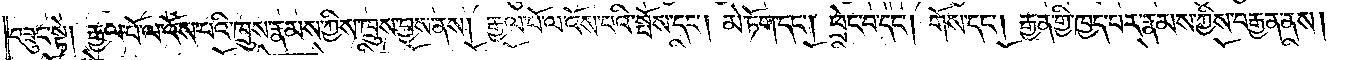བཟུང་སྟེ། རྒྱལ་པོ་ལ་འོས་པའི་ཁྲུས་རྣམས་ཀྱིས་ཁྲུས་བྱས་ནས། རྒྱལ་པོ་ལ་འོས་པའི་སྤོས་དང༌། མེ་ཏོག་དང༌། ཕྲེང་བ་དང༌། གོས་དང༌། རྒྱན་གྱི་ཁྱད་པར་རྣམས་ཀྱིས་བརྒྱན་ནས།
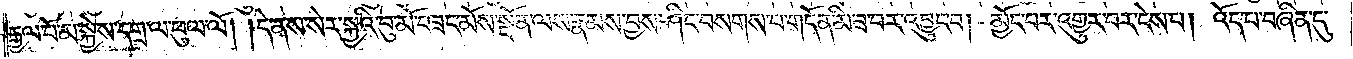རྒྱལ་པོ་མ་སྐྱེས་དགྲ་ལ་ཕུལ་ལོ། །དེ་ནས་སེར་སྐྱའི་བུ་མོ་བཟང་མོས་སྔོན་ལས་རྣམས་བྱས་ཤིང་བསགས་པ་གདོན་མི་ཟ་བར་འབྱུང་བ། མྱོང་བར་འགྱུར་བར་ངེས་པ། འོད་པ་བཞིན་དུ་
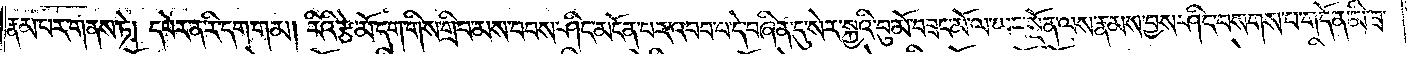རྣམ་པར་གནས་ཏེ། དཔེར་ན་རི་དག་གམ། རིའི་རྩེ་མོ་དག་གིས་གྲིབ་མས་བབས་ཤིང་མངོན་པར་འབབ་པ་དེ་བཞིན་དུ་སེར་སྐྱའི་བུ་མོ་བཟང་མོ་ལ་ཡང་སྔོན་ལས་རྣམས་བྱས་ཤིང་བསགས་པ་གདོན་མི་ཟ་
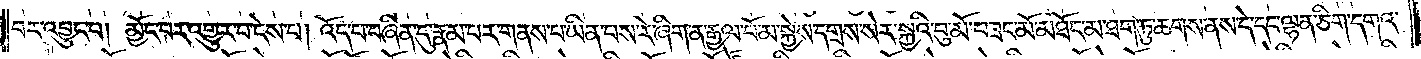བར་འབྱུང་བ། མྱོང་བར་འགྱུར་བ་ངེས་པ། འོད་པ་བཞིན་དུ་རྣམ་པར་གནས་པ་ཡིན་པས་རེ་ཞིག་ན་རྒྱལ་པོ་མ་སྐྱེད་དགྲས་སེར་སྐྱའི་བུ་མོ་བཟང་མོ་མཐོང་མ་ཐག་ཏུ་ཆགས་ནས་དེ་དང་ལྷན་ཅིག་དགའ་
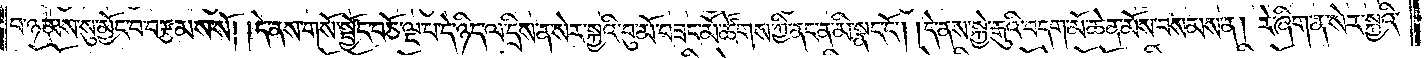བ་ཉམས་སུ་མྱོང་བ་བརྩམས་སོ། །དེ་ནས་གསོ་སྦྱོང་བཅོ་ལྔ་པ་དེ་ཉིད་ལ་དྲིས་ན་སེར་སྐྱའི་བུ་མོ་བཟང་མོ་ཚོགས་ཀྱི་ནང་ན་མི་སྣང་ངོ༌། །དེ་ནས་སྐྱེ་རྒུའི་བདག་མོ་ཆེན་མོས་བསམས་ན། རེ་ཞིག་ན་སེར་སྐྱའི་
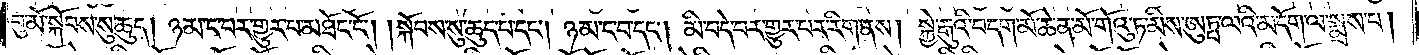བུ་མོ་སྐོབས་སུ་ཆུད། ཉམ་ང་བར་གྱུར་པ་མཐོང་ངོ༌། །སྐོབས་སུ་ཆུད་པ་དང༌། ཉམ་ང་བ་དང༌། མི་བདེ་བར་གྱུར་བར་རིག་ནས། སྐྱེ་རྒུའི་བདག་མོ་ཆེན་མོ་གོའུ་ཏ་མིས་ཨུཏྤ་ལའི་མདོག་ལ་སྨྲས་པ།
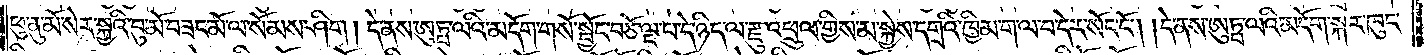ཕུ་ནུ་མོ་སེར་སྐྱའི་བུ་མོ་བཟང་མོ་ལ་སོམས་ཤིག །དེ་ནས་ཨུཏྤ་ལའི་མདོག་གསོ་སྦྱོང་བཅོ་ལྔ་པ་དེ་ཉིད་ལ་རྫུ་འཕྲུལ་གྱིས་མ་སྐྱེས་དགྲའི་ཁྱིམ་ག་ལ་བ་དེར་སོང་ངོ༌། །དེ་ནས་ཨུཏྤ་ལའི་མདོག་སྐར་ཁུང་
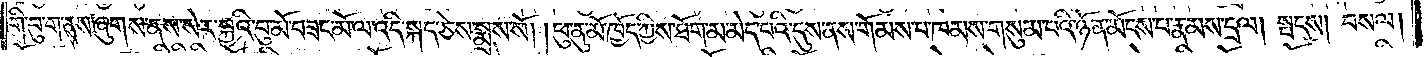གི་བུ་གནས་ཞུགས་ནས་སེར་སྐྱའི་བུ་མོ་བཟང་མོ་ལ་འདི་སྐད་ཅེས་སྨྲས་སོ། །ཕུ་ནུ་མོ་ཁྱོད་ཀྱིས་ཐོག་མ་མེད་པའི་དུས་ནས་གོམས་པ་ཁམས་གསུམ་པའི་ཉོན་མོངས་པ་རྣམས་དྲལ། སྤངས། བསལ།
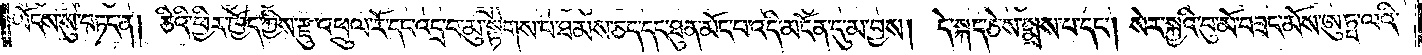ཡོངས་སུ་བཏང་ན། ཅིའི་ཕྱིར་ཁྱོད་ཀྱིས་རྫུ་འཕྲུལ་རོ་དང་འདྲ་བ་མུ་སྟེགས་པ་ཐམས་ཅད་དང་ཐུན་མོང་པ་འདི་མངོན་དུ་མ་བྱས། དེ་སྐད་ཅེས་སྨྲས་པ་དང༌། སེར་སྐྱའི་བུ་མོ་བཟང་མོ་ཨུཏྤ་ལའི་
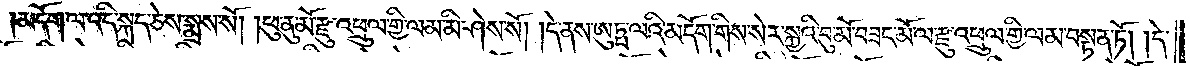མདོག་ལ་འདི་སྐད་ཅེས་སྨྲས་སོ། །ཕུ་ནུ་མོ་རྫུ་འཕྲུལ་གྱི་ལམ་མི་ཤེས་སོ། །དེ་ནས་ཨུཏྤ་ལའི་མདོག་གིས་སེར་སྐྱའི་བུ་མོ་བཟང་མོ་ལ་རྫུ་འཕྲུལ་གྱི་ལམ་བསྟན་ཏོ། །དེ་
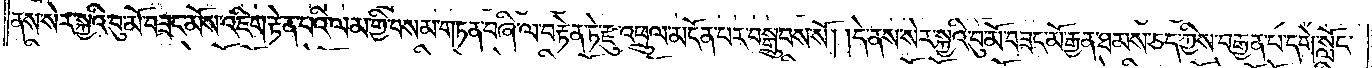ནས་སེར་སྐྱའི་བུ་མོ་བཟང་མོས་འཇིག་རྟེན་པའི་ལམ་གྱི་བསམ་གཏན་བཞི་ལ་བརྟེན་ཏེ་རྫུ་འཕྲུལ་མངོན་པར་བསྒྲུབས་སོ། །དེ་ནས་སེར་སྐྱའི་བུ་མོ་བཟང་མོ་རྒྱན་ཐམས་ཅད་ཀྱིས་བརྒྱན་པ་དགེ་སློང་
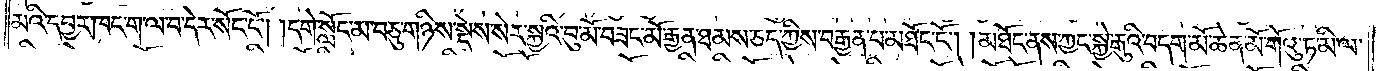མའི་དབྱར་ཁང་ག་ལ་བ་དེར་སོང་ངོ༌། །དགེ་སློང་མ་བཅུ་གཉིས་སྡེས་སེར་སྐྱའི་བུ་མོ་བཟང་མོ་རྒྱན་ཐམས་ཅད་ཀྱིས་བརྒྱན་པ་མཐོང་ངོ༌། །མཐོང་ནས་ཀྱང་སྐྱེ་རྒུའི་བདག་མོ་ཆེན་མོ་གོའུ་ཏ་མི་ལ་
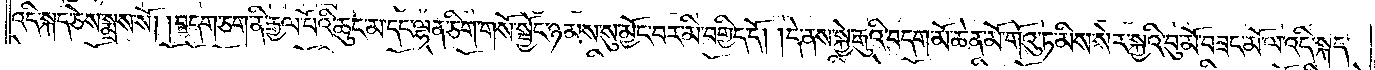འདི་སྐད་ཅེས་སྨྲས་སོ། །བདག་ཅག་ནི་རྒྱལ་པོའི་ཆུང་མ་དང་ལྷན་ཅིག་གསོ་སྦྱོང་ཉམས་སུ་མྱོང་བར་མི་བགྱིད་དོ། །དེ་ནས་སྐྱེ་རྒུའི་བདག་མོ་ཆེན་མོ་གོའུ་ཏ་མི་སེར་སྐྱའི་བུ་མོ་བཟང་མོ་ལ་འདི་སྐད་
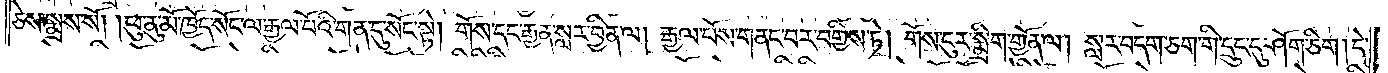ཅེས་སྨྲས་སོ། །ཕུ་ནུ་མོ་ཁྱོད་སོང་ལ་རྒྱལ་པོའི་གན་དུ་སོང་སྟེ། གོས་དང་རྒྱན་སླར་བྱིན་ལ། རྒྱལ་པོས་གནང་བར་བགྱིས་ཏེ། གོས་ངུར་སྨྲིག་གྱོན་ལ། སླར་བདག་ཅག་གི་དྲུང་དུ་ཤོག་ཅིག །དེ་
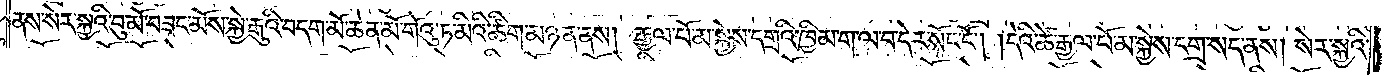ནས་སེར་སྐྱའི་བུ་མོ་བཟང་མོས་སྐྱེ་རྒུའི་བདག་མོ་ཆེན་མོ་གོའུ་ཏ་མིའི་ཚིག་མཉན་ནས། རྒྱལ་པོ་མ་སྐྱེས་དགྲའི་ཁྱིམ་ག་ལ་བ་དེར་སོང་ངོ༌། །དེའི་ཚེ་རྒྱལ་པོ་མ་སྐྱེས་དགྲ་སད་ནས། སེར་སྐྱའི་
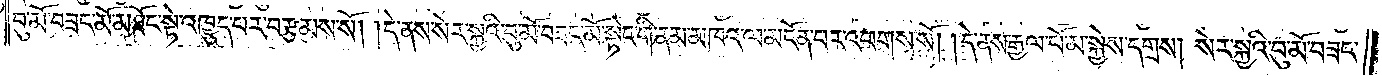བུ་མོ་བཟང་མོ་མཐོང་སྟེ་འཁྱུད་པར་བརྩམས་སོ། །དེ་ནས་སེར་སྐྱའི་བུ་མོ་བཟང་མོ་སྟེང་གི་ནམ་མཁའ་ལ་མངོན་པར་འཕགས་སོ། །དེ་ནས་རྒྱལ་པོ་མ་སྐྱེས་དགྲས། སེར་སྐྱའི་བུ་མོ་བཟང་
